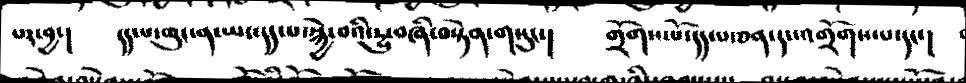པར་བྱ་།    དད་པ་ཕུང་ན་ཡང་དད་པ་སྐྱེ་བའི་རྱུ་བཞི་བསྟེན་གསུང་།    གྲོགས་པོ་དད་པ་ཅན་དང་འགྲོགས་པ་དང་།
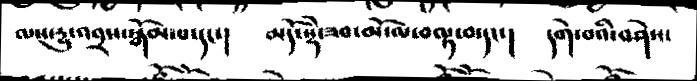ལས་རྱུ་འབྲས་སྒོམ་པ་དང་།   མདོ་སྡེ་ཟབ་མོ་ལ་བལྟ་བ་དང་།   དགེ་བའི་བཤེས་
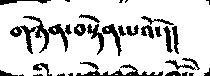གཉེན་བསྟེན་པའོ་།།
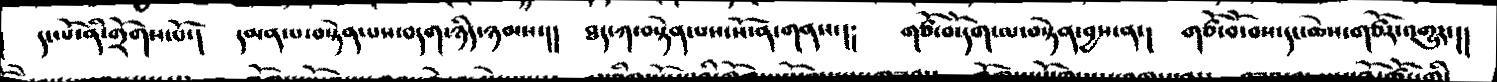དང་པོ་ནི་གྲོགས་པོ་།   དམན་པ་བསྟེན་པས་བདག་ཉིད་ཉམས་།།    ཐད་ཀ་བསྟེན་པས་སོ་ན་གནས་།།    གཙོ་བོ་དག་ལ་བསྟེན་བྱས་ན་།    གཙོ་བོ་བས་དང་ཆེས་གཙོར་འགྱུར་།།
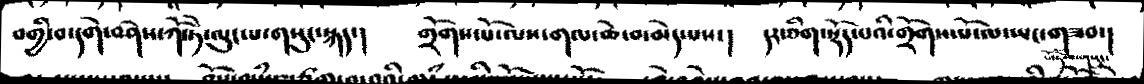བགྱི་བ་དགི་བཤེས་ཀོ་ཏེ་ལུང་པ་གསུང་སྐད་།   གྲོགས་པོ་ལས་གལ་ཆེ་བ་མེད་པས་།    དར་ཅིག་སྡོད་པའི་གྲོགས་པོ་ལ་ཡང་གཟབ་།
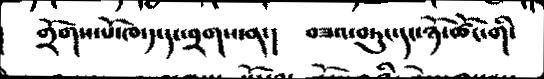གྲོགས་པོ་ཁ་༡་དང་བྲགས་ན་།   བཟའ་བཏུང་དང་ཉོ་ཚོང་གི་
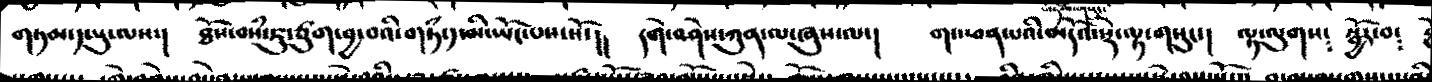གཏམ་༡་པུ་ལས་།   ཐོས་བསཾ་ཇུ་ཙུག་བྱ་བའི་གཏཾ་༡་མི་ཡོང་བས་སོ་།།   དགེ་བཤེས་ཀུན་ལ་ཞུས་ལ་།   གང་ཕན་པའི་མདོའ་སྡེ་ལྟ་གསུང་།   ལྟ་ལུགས༴ སྦྱོར་བ༴
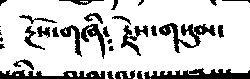རྔོས་གཞི༴   རྗེས་གསུམ་
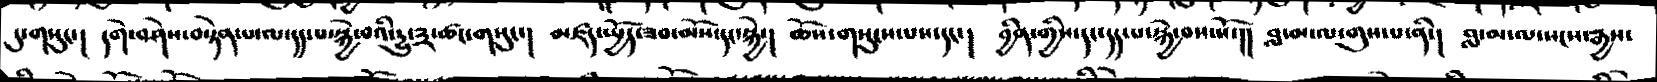དུ་གསུང་།  དགེ་བཤེས་བསྟེན་པ་ལ་དད་པ་སྐྱེ་བའི་དྱུ་༣་ཚང་གསུང་།   མཛད་སྤྱོད་ཟབ་མོས་དང་སྐྱེ་།   ཆོས་གསུངས་པས་དང་།   བྱིན་གྱིས་དང་དད་པ་སྐྱེ་བས་སོ་།།  བླ་བ་ལ་གུས་པ་ནི་།  བླ་མ་ལ་སངས་རྒྱས་
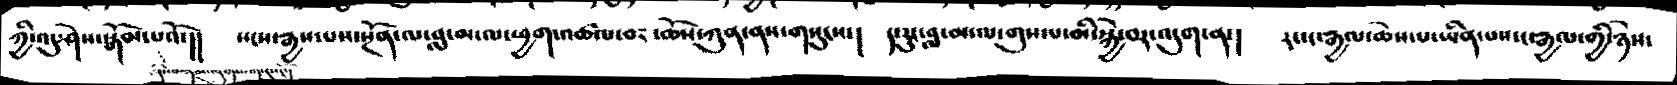ཀྱི་འདུ་ཤེས་སྒོམ་པའོ་། སངས་རྒྱས་པས་སྔོན་ལ་བླ་མ་ལ་ཕྱག་འཚལ་བར་ཆོས་ཀུན་ནས་གསུངས་།   ད་རུང་བླ་མ་ལ་གུས་པ་མི་སྐྱེ་བར་འདུག་ན་།  རང་ང་རྒྱལ་ཆེས་པ་ཡིན་པས་ང་རྒྱལ་གྱི་ཉེས་
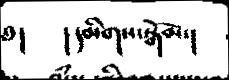༅།      །དམིགས་སྒོམ་།
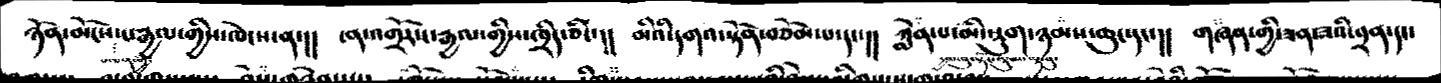ཉོན་མོངས་ང་རྒྱལ་གྱིས་ཁེངས་ན་།།    ངན་འགྲོར་ང་རྒྱལ་གྱིས་ཁྲིད་ཅིང་།།    མིའི་དགའ་སྟོམ་བཅོམ་པ་དང་།།    ཀླེན་པ་མི་སྡུག་ཉམས་ཆུང་དང་།།  གཞན་གྱི་ཟན་ཟའི་བྲན་དང་
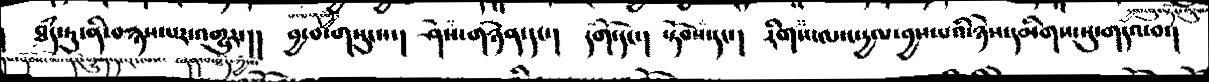ཐཾད་ཏུ་བརྙས་པར་འགྱུར་།།  བྱ་བ་གསུངས་།  ཤེས་གཉེན་དང་།  དགོ་དང་།  སྟོབས་དང་།  རིགས་ལ་ང་དྱལ་བྱས་པའི་ཉེས་དམིགས་སུ་གདའ་བ་།
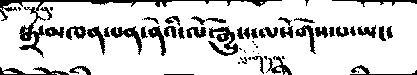སྒྲ་མཁན་པན་ནེའི་མོ་རྒྱུས་ལསོགས་པ་ཡང་
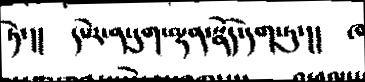ཏེ་།།   དཔེར་ན་དུག་ལྡན་སྣོད་དག་ཏུ་།། ཁ
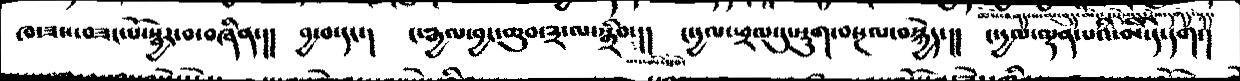ཁ་ཟས་བཟང་པོ་སྦྱར་བ་བཞིན་།།  བྱ་བ་དང་།  ང་རྒྱལ་བྱང་ཆུབ་༣་ལ་སྒྲིབ་།།  ང་དྱལ་ཕྲལ་དུ་སྡུག་བསྔལ་བསྐྱེད་།།  ང་དྱལ་ལྡན་པའི་མི་དེ་དག་།
